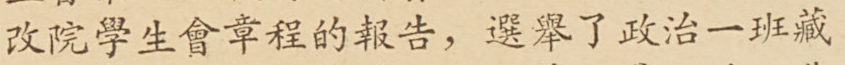改院學生會章程的報告，選舉了政治一班藏
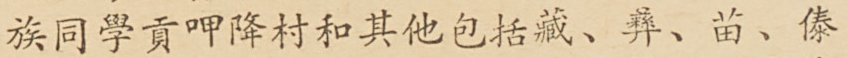族同學貢呷降村和其他包括藏、彝、苗、傣
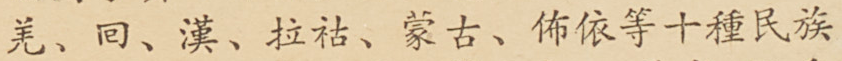羌、囘、漢、拉祜、蒙古、佈依等十種民族
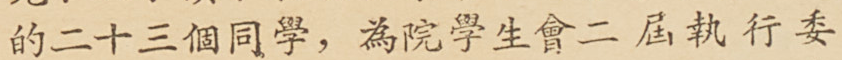的二十三個同學，為院學生會二屆執行委
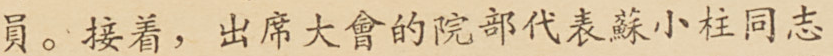員。接着，出席大會的院部代表蘇小柱同志
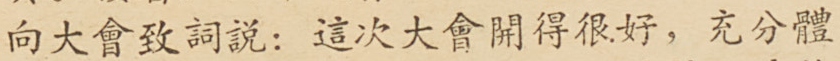向大會致詞說：這次大會開得很好，充分體
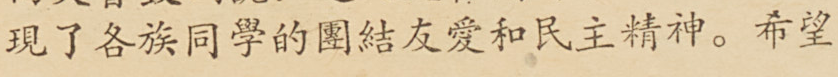現了各族同學的團結友愛和民主精神。希望
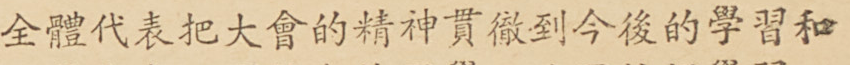全體代表把大會的精神貫徹到今後的學習和
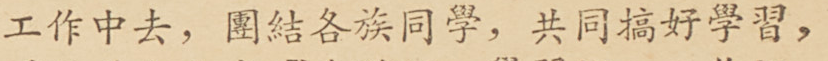工作中去，團結各族同學，共同搞好學習，
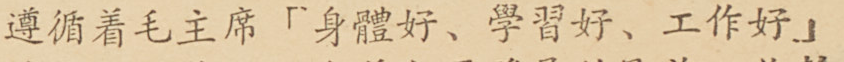遵循着毛主席「身體好、學習好、工作好」
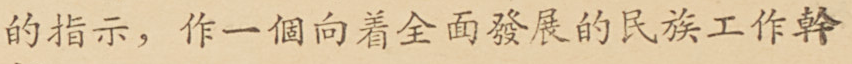的指示，作一個向着全面發展的民族工作幹
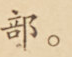部。
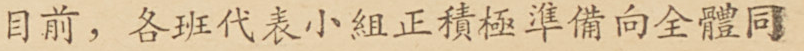目前，各班代表小組正積極準備向全體同
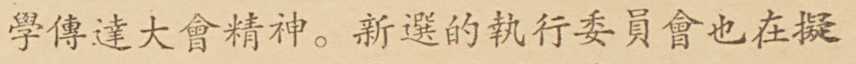學傳達大會精神。新選的執行委員會也在擬
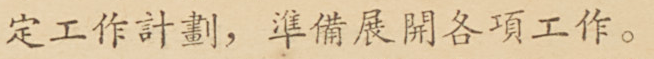定工作計劃，準備展開各項工作。
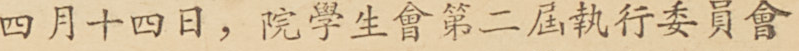四月十四日，院學生會第二屆執行委員會
